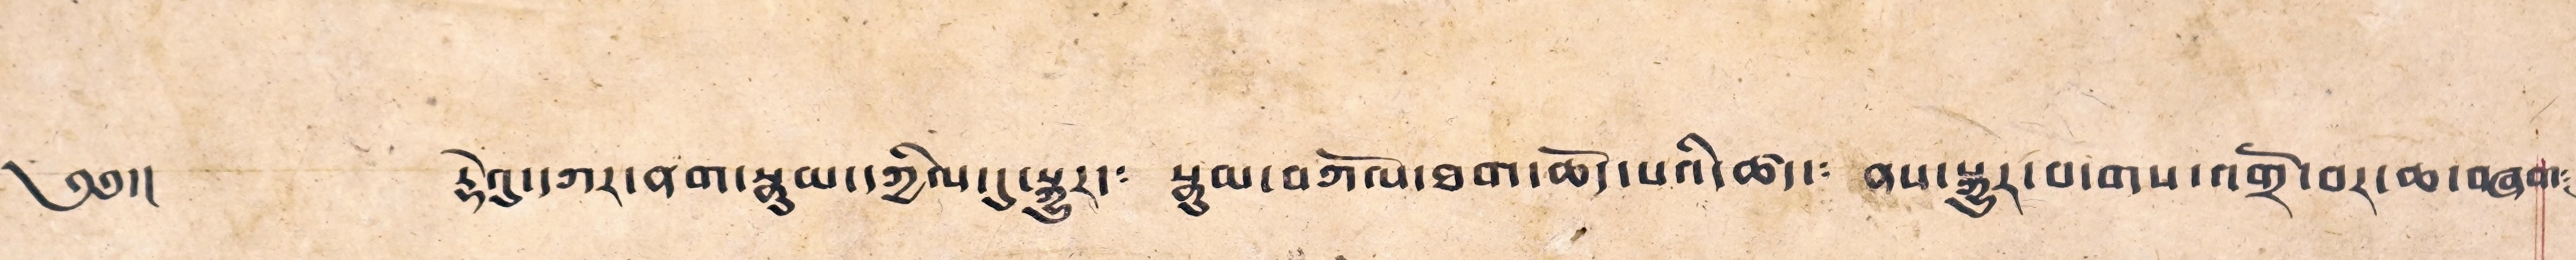༄༅།། རྡེའུ་དཀར་ནག་རྣམ་དཀྱིལ་དུ་སྐུར་༴ སྣུམ་བཀོལ་ཐག་ཆོད་པའི་ཚད་༴ ནས་སྐྱུར་བ་གས་འགྲོ་བར་ཆ་བཞག་༴
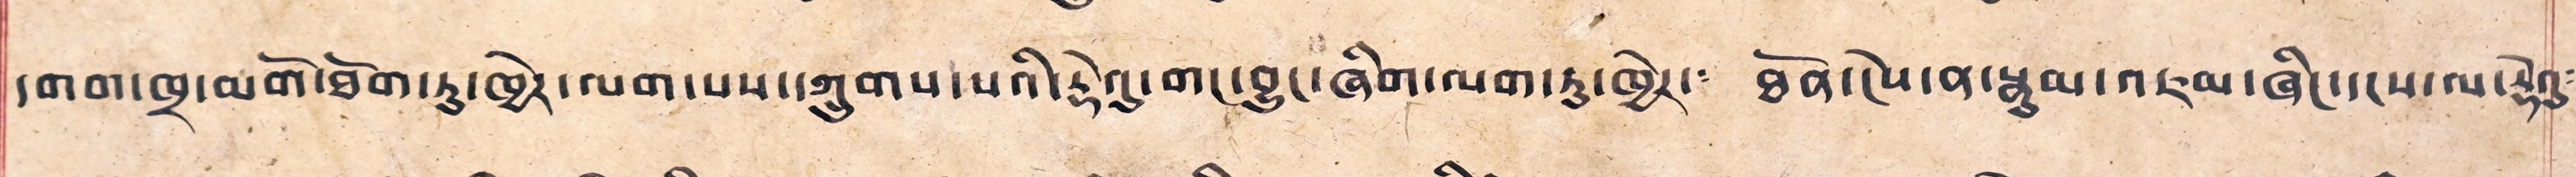དགག་ཁྲ་མགོ་ཐོག་ཏུ་ཁྱེར་ལག་པས་དཀྲུགས་པའི་རྡེའུ་གང་བྱུང་ཞིག་ལག་ཏུ་ཁྱེར་༴ ཐོན་ངེས་ན་སྣུམ་འཇམ་ཞིང་དངས་ལ་རྡེའུ༴
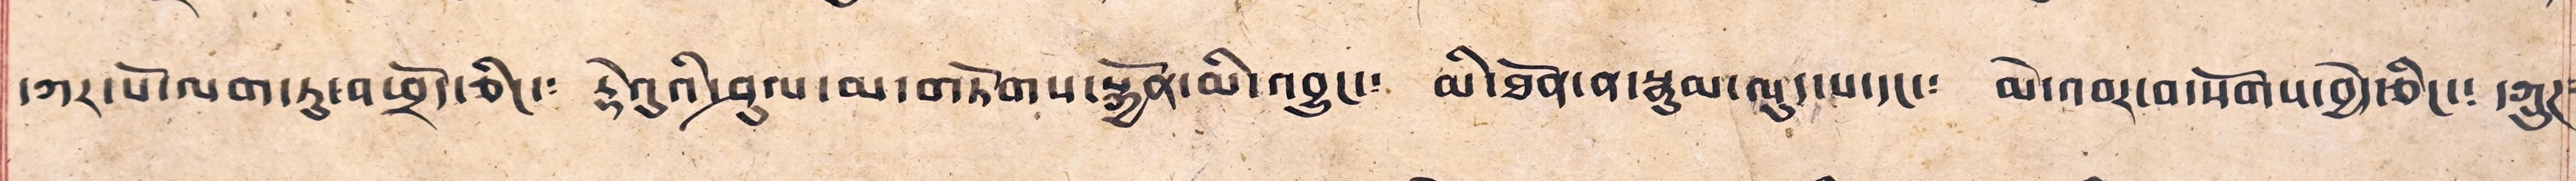དཀར་པོ་ལག་ཏུ་འཕྲོད་ཅིང་༴ རྡེའུའི་ཤུལ་མ་གཏོགས་སྐྱོན་མི་འབྱུང་༴ མི་ཐོན་ན་སྣམ་ལུད་པ་དང་༴ མེ་འབར་བ་སོགས་བྱེ་ཅིང་༴ དཀྲུཊ༴
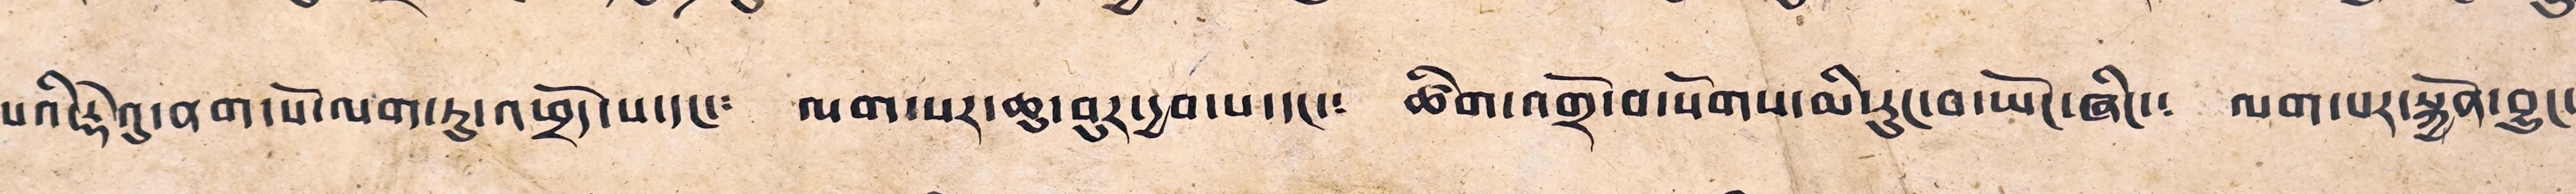པའི་རྡེའུ་ནག་པོ་ལག་ཏུ་འཕྲོད་པ་དང་༴ ལག་པར་ཆུ་བུར་དྱབ་པ་དང་༴ ཚིག་འགྲོ་བ་སོགས་མི་རུང་བ་ཡོང་ཞིང་༴ ལག་པར་སྐྱོན་བྱུང་
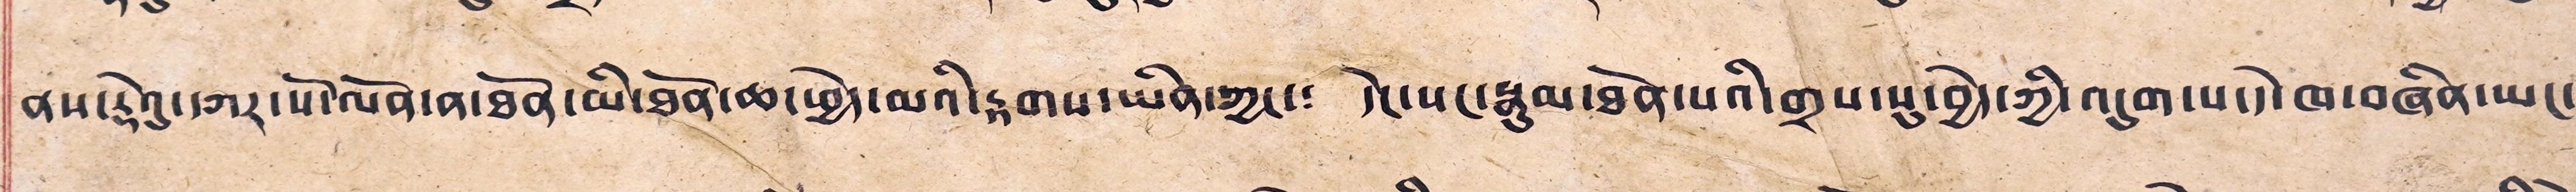ནས་རྡེའུ་དཀར་པོ་ལོན་ན་ཐོན་མི་ཐོན་ཆ་ཕྱེད་མའི་རྟགས་ཡིན་ཀྱང་༴ དེང་སང་སྣུམ་ཐོན་པའི་གྲས་སུ་བྱེད་ཀྱི་འདུག་པ་དེ་ཁ་བཞིན་ཡང་
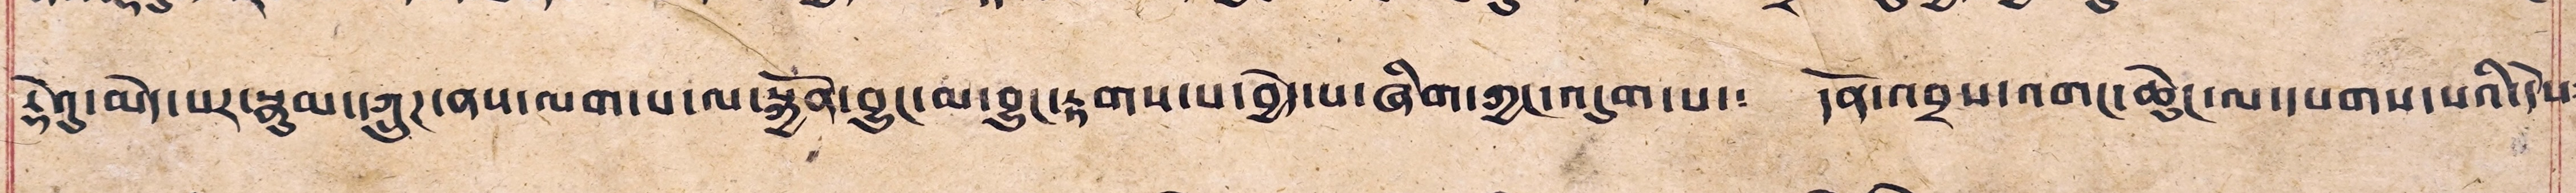རྡེའུ་མེད་པར་སྣུམ་དཀྲུཊ་ནས་ལག་པ་ལ་སྐྱོན་བྱུང་མ་བྱུང་རྟགས་པ་བྱེད་པ་ཞིག་ཀྱང་འདུག་པ་༴ དོན་འབྲས་འགང་ཆེུང་ལ་དཔགས་པའི་དེས༴
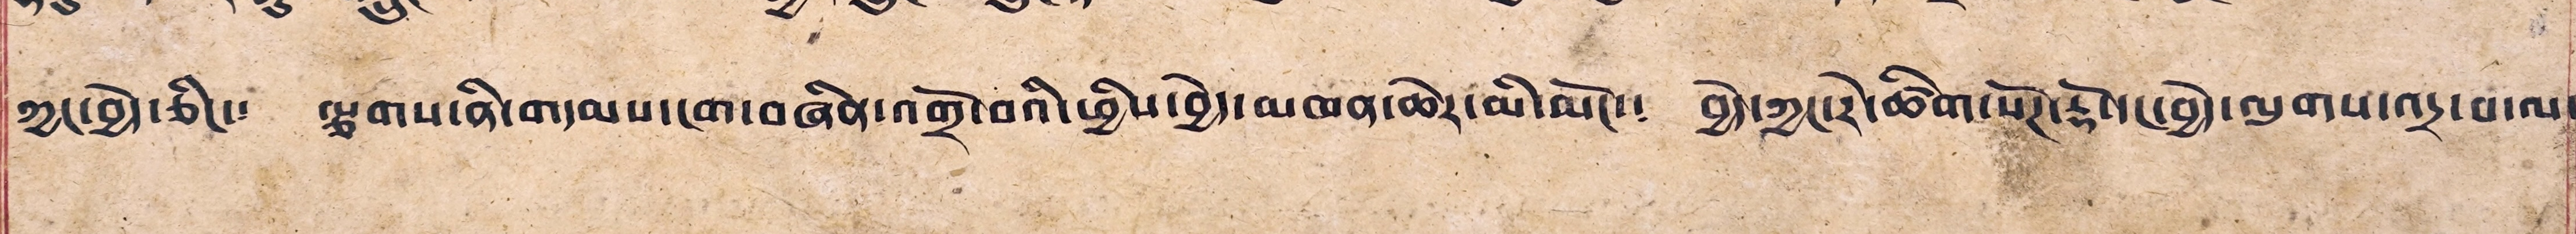ཀྱང་བྱེད་ཅིང་༴ ལྕགས་ནི་གདམས་ངག་བཞིན་འགྲོ་བའི་ཕྱིས་བྱེད་མཁན་ཆེར་མི་མོང་༴ བྱེད་ཀྱང་རེ་ཚིག་སོཊ་རྡོ་དང་བྱེད་ལུགས་འདྲ་བ་ལ་
